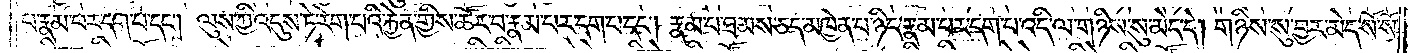པ་རྣམ་པར་དག་པ་དང༌། ལུས་ཀྱི་འདུས་ཏེ་རེག་པའི་རྐྱེན་གྱིས་ཚོར་བ་རྣམ་པར་དག་པ་དང༌། རྣམ་པ་ཐམས་ཅད་མཁྱེན་པ་ཉིད་རྣམ་པར་དག་པ་འདི་ལ་གཉིས་སུ་མེད་དེ། གཉིས་སུ་བྱར་མེད་སོ་སོ་
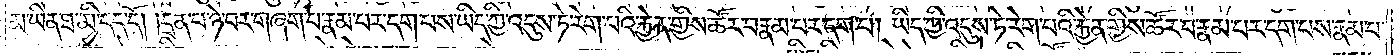མ་ཡིན་ཐ་མི་དད་དོ། །དྲན་པ་ཉེ་བར་གཞག་པ་རྣམ་པར་དག་པས་ཡིད་ཀྱི་འདུས་ཏེ་རེག་པའི་རྐྱེན་གྱིས་ཚོར་བ་རྣམ་པར་དག་པ། ཡིད་ཀྱི་འདུས་ཏེ་རེག་པའི་རྐྱེན་གྱིས་ཚོར་བ་རྣམ་པར་དག་པས་རྣམ་པ་
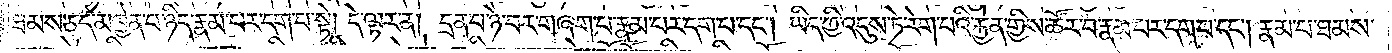ཐམས་ཅད་མཁྱེན་པ་ཉིད་རྣམ་པར་དག་པ་སྟེ། དེ་ལྟར་ན། དྲན་པ་ཉེ་བར་གཞག་པ་རྣམ་པར་དག་པ་དང༌། ཡིད་ཀྱི་འདུས་ཏེ་རེག་པའི་རྐྱེན་གྱིས་ཚོར་བ་རྣམ་པར་དག་པ་དང༌། རྣམ་པ་ཐམས་
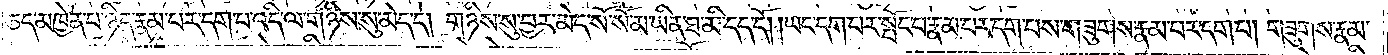ཅད་མཁྱེན་པ་ཉིད་རྣམ་པར་དག་པ་འདི་ལ་གཉིས་སུ་མེད་དེ། གཉིས་སུ་བྱར་མེད་སོ་སོ་མ་ཡིན་ཐ་མི་དད་དོ། །ཡང་དག་པར་སྤོང་བ་རྣམ་པར་དག་པས་གཟུགས་རྣམ་པར་དག་པ། གཟུགས་རྣམ་
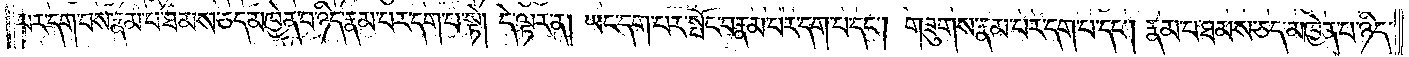པར་དག་པས་རྣམ་པ་ཐམས་ཅད་མཁྱེན་པ་ཉིད་རྣམ་པར་དག་པ་སྟེ། དེ་ལྟར་ན། ཡང་དག་པར་སྤོང་བ་རྣམ་པར་དག་པ་དང༌། གཟུགས་རྣམ་པར་དག་པ་དང༌། རྣམ་པ་ཐམས་ཅད་མཁྱེན་པ་ཉིད་
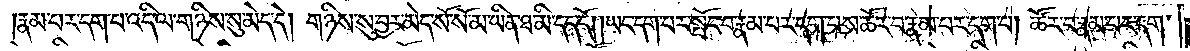རྣམ་པར་དག་པ་འདི་ལ་གཉིས་སུ་མེད་དེ། གཉིས་སུ་བྱར་མེད་སོ་སོ་མ་ཡིན་ཐ་མི་དད་དོ། །ཡང་དག་པར་སྤོང་བ་རྣམ་པར་དག་པས་ཚོར་བ་རྣམ་པར་དག་པ། ཚོར་བ་རྣམ་པར་དག་
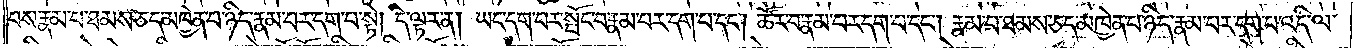པས་རྣམ་པ་ཐམས་ཅད་མཁྱེན་པ་ཉིད་རྣམ་པར་དག་པ་སྟེ། དེ་ལྟར་ན། ཡང་དག་པར་སྤོང་བ་རྣམ་པར་དག་པ་དང༌། ཚོར་བ་རྣམ་པར་དག་པ་དང༌། རྣམ་པ་ཐམས་ཅད་མཁྱེན་པ་ཉིད་རྣམ་པར་དག་པ་འདི་ལ་
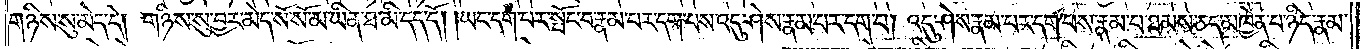གཉིས་སུ་མེད་དེ། གཉིས་སུ་བྱར་མེད་སོ་སོ་མ་ཡིན་ཐ་མི་དད་དོ། །ཡང་དག་པར་སྤོང་བ་རྣམ་པར་དག་པས་འདུ་ཤེས་རྣམ་པར་དག་པ། འདུ་ཤེས་རྣམ་པར་དག་པས་རྣམ་པ་ཐམས་ཅད་མཁྱེན་པ་ཉིད་རྣམ་
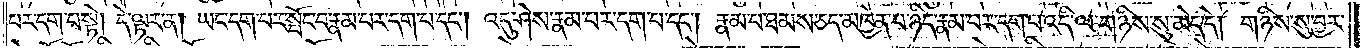པར་དག་པ་སྟེ། དེ་ལྟར་ན། ཡང་དག་པར་སྤོང་བ་རྣམ་པར་དག་པ་དང༌། འདུ་ཤེས་རྣམ་པར་དག་པ་དང༌། རྣམ་པ་ཐམས་ཅད་མཁྱེན་པ་ཉིད་རྣམ་པར་དག་པ་འདི་ལ་གཉིས་སུ་མེད་དེ། གཉིས་སུ་བྱར་
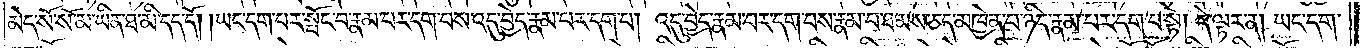མེད་སོ་སོ་མ་ཡིན་ཐ་མི་དད་དོ། །ཡང་དག་པར་སྤོང་བ་རྣམ་པར་དག་པ་འདུ་བྱེད་རྣམ་པར་དག་པ། འདུ་བྱེད་རྣམ་པར་དག་པས་རྣམ་པ་ཐམས་ཅད་མཁྱེན་པ་ཉིད་རྣམ་པར་དག་པ་སྟེ། དེ་ལྟར་ན། ཡང་དག་
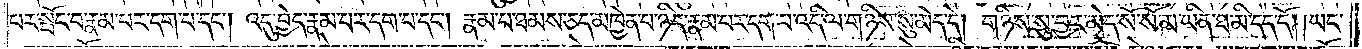པར་སྤོང་བ་རྣམ་པར་དག་པ་དང༌། འདུ་བྱེད་རྣམ་པར་དག་པ་དང༌། རྣམ་པར་ཐམས་ཅད་མཁྱེན་པ་ཉིད་རྣམ་པར་དག་པ་འདི་ལ་གཉིས་སུ་མེད་དེ། གཉིས་སུ་བྱར་མེད་སོ་སོ་མ་ཡིན་ཐ་མི་དད་དོ། །ཡང་
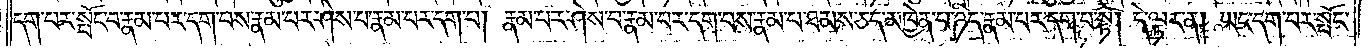དག་པར་སྤོང་བ་རྣམ་པར་དག་པར་རྣམ་པར་ཤེས་པ་རྣམ་པར་དག་པ། རྣམ་པར་ཤེས་པ་རྣམ་པར་དག་པས་རྣམ་པ་ཐམས་ཅད་མཁྱེན་པ་ཉིད་རྣམ་པར་དག་པ་སྟེ། དེ་ལྟར་ན། ཡང་དག་པར་སྤོང་
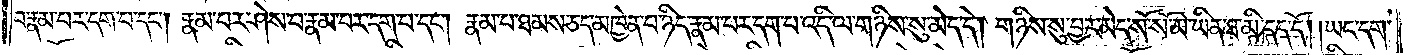བ་རྣམ་པར་དག་པ་དང༌། རྣམ་པར་ཤེས་པ་རྣམ་པར་དག་པ་དང༌། རྣམ་པ་ཐམས་ཅད་མཁྱེན་པ་ཉིད་རྣམ་པར་དག་པ་འདི་ལ་གཉིས་སུ་མེད་དེ། གཉིས་སུ་བྱར་མེད་སོ་སོ་མ་ཡིན་ཐ་མི་དད་དོ། །ཡང་དག་
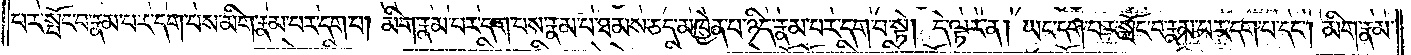པར་སྤོང་བ་རྣམ་པར་དག་པས་མིག་རྣམ་པར་དག་པ། མིག་རྣམ་པར་དག་པས་རྣམ་པ་ཐམས་ཅད་མཁྱེན་པ་ཉིད་རྣམ་པར་དག་པ་སྟེ། དེ་ལྟར་ན། ཡང་དག་པར་སྤོང་བ་རྣམ་པར་དག་པ་དང༌། མིག་རྣམ་
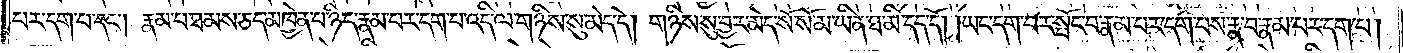པར་དག་པ་དང༌། རྣམ་པ་ཐམས་ཅད་མཁྱེན་པ་ཉིད་རྣམ་པར་དག་པ་འདི་ལ་གཉིས་སུ་མེད་དེ། གཉིས་སུ་བྱར་མེད་སོ་སོ་མ་ཡིན་ཐ་མི་དད་དོ། །ཡང་དག་པར་སྤོང་བ་རྣམ་པར་དག་པས་རྣ་བ་རྣམ་པར་དག་པ།
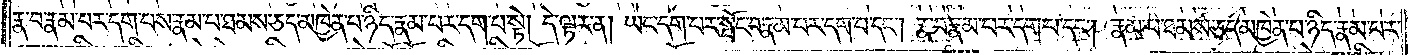རྣ་བ་རྣམ་པར་དག་པས་རྣམ་པ་ཐམས་ཅད་མཁྱེན་པ་ཉིད་རྣམ་པར་དག་པ་སྟེ། དེ་ལྟར་ན། ཡང་དག་པར་སྤོང་བ་རྣམ་པར་དག་པ་དང༌། རྣ་བ་རྣམ་པར་དག་པ་དང༌། རྣམ་པ་ཐམས་ཅད་མཁྱེན་པ་ཉིད་རྣམ་པར་
